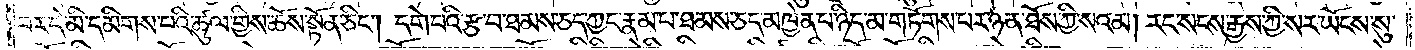བར་དེ་མི་དམིགས་པའི་ཚུལ་གྱིས་ཆོས་སྟོན་ཅིང༌། དགེ་བའི་རྩ་བ་ཐམས་ཅད་རྣམ་ཀྱང་རྣམ་པ་ཐམས་ཅད་མཁྱེན་པ་ཉིད་མ་གཏོགས་པར་ཉན་ཐོས་ཀྱི་སའམ། རང་སངས་རྒྱས་ཀྱི་སར་ཡོངས་སུ་
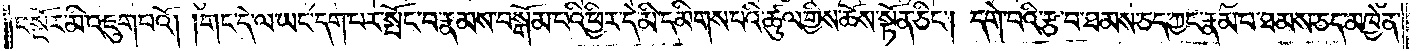བསྔོར་མི་འཇུག་པའོ། །གང་དེ་ལ་ཡང་དག་པར་སྤོང་བ་རྣམས་བསྒོམ་པའི་ཕྱིར་དེ་མི་དམིགས་པའི་ཚུལ་གྱིས་ཆོས་སྟོན་ཅིང༌། དགེ་བའི་རྩ་བ་ཐམས་ཅད་ཀྱང་རྣམ་པ་ཐམས་ཅད་མཁྱེན་
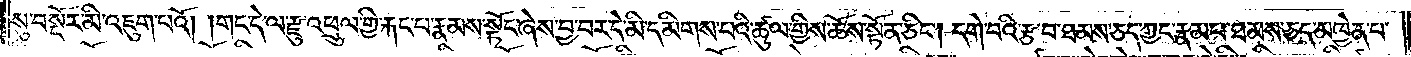སུ་བསྔོར་མི་འཇུག་པའོ། །གང་དེ་ལ་རྫུ་འཕྲུལ་གྱི་རྐང་པ་རྣམས་སྟོང་ཞེས་བྱ་བར་དེ་མི་དམིགས་པའི་ཚུལ་གྱིས་ཆོས་སྟོན་ཅིང༌། དགེ་བའི་རྩ་བ་ཐམས་ཅད་ཀྱང་རྣམ་པ་ཐམས་ཅད་མཁྱེན་པ་
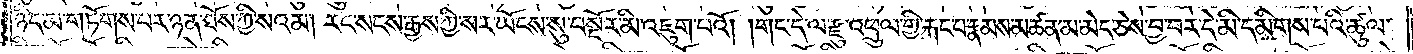ཉིད་མ་གཏོགས་པར་ཉན་ཐོས་ཀྱི་སའམ། རང་སངས་རྒྱས་ཀྱི་སར་ཡོངས་སུ་བསྔོར་མི་འཇུག་པའོ། །གང་དེ་ལ་རྫུ་འཕྲུལ་གྱི་རྐང་པ་རྣམས་མཚན་མ་མེད་ཅེས་བྱ་བར་དེ་མི་དམིགས་པའི་ཚུལ་
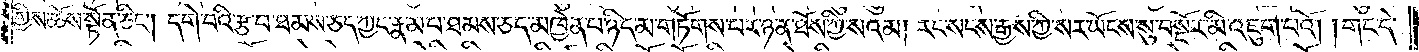གྱིས་ཆོས་སྟོན་ཅིང༌། དགེ་བའི་རྩ་བ་ཐམས་ཅད་ཀྱང་རྣམ་པ་ཐམས་ཅད་མཁྱེན་པ་ཉིད་མ་གཏོགས་པར་ཉན་ཐོས་ཀྱི་སའམ། རང་སངས་རྒྱས་ཀྱི་སར་ཡོངས་སུ་བསྔོར་མི་འཇུག་པའོ། །གང་དེ་
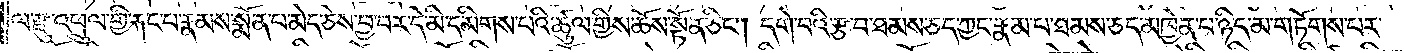ལ་རྫུ་འཕྲུལ་གྱི་རྐང་པ་རྣམས་སྨོན་པ་མེད་ཅེས་བྱ་བར་དེ་མི་དམིགས་པའི་ཚུལ་གྱིས་ཆོས་སྟོན་ཅིང༌། དགེ་བའི་རྩ་བ་ཐམས་ཅད་ཀྱང་རྣམ་པ་ཐམས་ཅད་མཁྱེན་པ་ཉིད་མ་གཏོགས་པར་
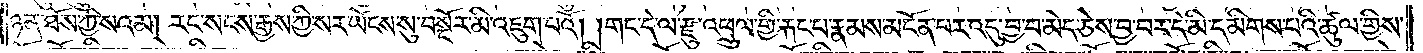ཉན་ཐོས་ཀྱི་སའམ། རང་སངས་རྒྱས་ཀྱི་སར་ཡོངས་སུ་བསྔོར་མི་འཇུག་པའོ། །གང་དེ་ལ་རྫུ་འཕྲུལ་གྱི་རྐང་པ་རྣམས་མངོན་པར་འདུ་བྱ་བ་མེད་ཅེས་བྱ་བར་དེ་མི་དམིགས་པའི་ཚུལ་གྱིས་
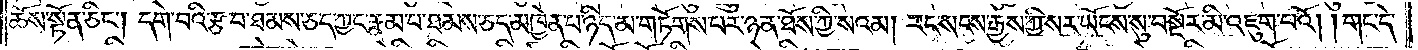ཆོས་སྟོན་ཅིང༌། དགེ་བའི་རྩ་བ་ཐམས་ཅད་ཀྱང་རྣམ་པ་ཐམས་ཅད་མཁྱེན་པ་ཉིད་མ་གཏོགས་པར་ཉན་ཐོས་ཀྱི་སའམ། རང་སངས་རྒྱས་ཀྱི་སར་ཡོངས་སུ་བསྔོར་མི་འཇུག་པའོ། །གང་དེ་
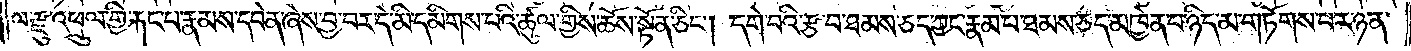ལ་རྫུ་འཕྲུལ་གྱི་རྐང་པ་རྣམས་དབེན་ཞེས་བྱ་བར་དེ་མི་དམིགས་པའི་ཚུལ་གྱིས་ཆོས་སྟོན་ཅིང༌། དགེ་བའི་རྩ་བ་ཐམས་ཅད་ཀྱང་རྣམ་པ་ཐམས་ཅད་མཁྱེན་པ་ཉིད་མ་གཏོགས་པར་ཉན་
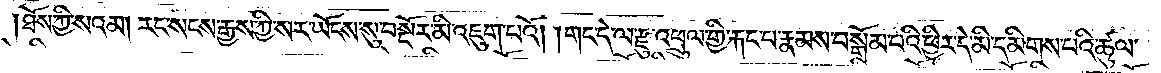ཐོས་ཀྱི་སའམ། རང་སངས་རྒྱས་ཀྱི་སར་ཡོངས་སུ་བསྔོར་མི་འཇུག་པའོ། །གང་དེ་ལ་རྫུ་འཕྲུལ་གྱི་རྐང་པ་རྣམས་བསྒོམ་པའི་ཕྱིར་དེ་མི་དམིགས་པའི་ཚུལ་
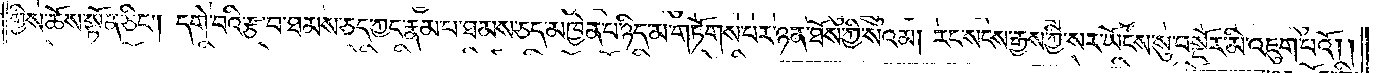གྱིས་ཆོས་སྟོན་ཅིང༌། དགེ་བའི་རྩ་བ་ཐམས་ཅད་ཀྱང་རྣམ་པ་ཐམས་ཅད་མཁྱེན་པ་ཉིད་མ་གཏོགས་པར་ཉན་ཐོས་ཀྱི་སའམ། རང་སངས་རྒྱས་ཀྱི་སར་ཡོངས་སུ་བསྔོར་མི་འཇུག་པའོ། །
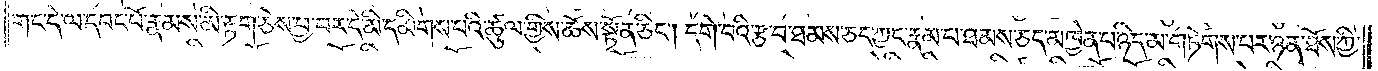གང་དེ་ལ་དབང་པོ་རྣམས་མི་རྟག་ཅེས་བྱ་བར་དེ་མི་དམིགས་པའི་ཚུལ་གྱིས་ཆོས་སྟོན་ཅིང༌། དགེ་བའི་རྩ་བ་ཐམས་ཅད་ཀྱང་རྣམ་པ་ཐམས་ཅད་མཁྱེན་པ་ཉིད་མ་གཏོགས་པར་ཉན་ཐོས་ཀྱི་
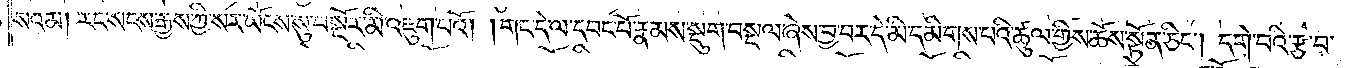སའམ། རང་སངས་རྒྱས་ཀྱི་སར་ཡོངས་སུ་བསྔོར་མི་འཇུག་པའོ། །གང་དེ་ལ་དབང་པོ་རྣམས་སྡུག་བསྔལ་ཞེས་བྱ་བར་དེ་མི་དམིགས་པའི་ཚུལ་གྱིས་ཆོས་སྟོན་ཅིང༌། དགེ་བའི་རྩ་བ་
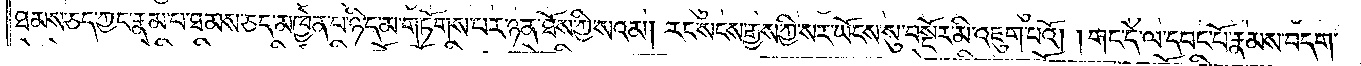ཐམས་ཅད་ཀྱང་རྣམ་པ་ཐམས་ཅད་མཁྱེན་པ་ཉིད་མ་གཏོགས་པར་ཉན་ཐོས་ཀྱི་སའམ། རང་སངས་རྒྱས་ཀྱི་སར་ཡོངས་སུ་བསྔོར་མི་འཇུག་པའོ། །གང་དེ་ལ་དབང་པོ་རྣམས་བདག་
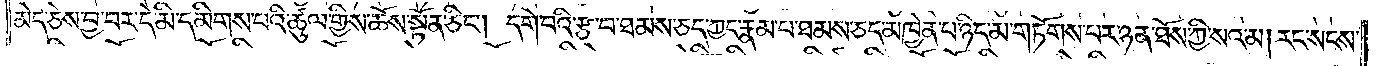མེད་ཅེས་བྱ་བར་དེ་མི་དམིགས་པའི་ཚུལ་གྱིས་ཆོས་སྟོན་ཅིང༌། དགེ་བའི་རྩ་བ་ཐམས་ཅད་ཀྱང་རྣམ་པ་ཐམས་ཅད་མཁྱེན་པ་ཉིད་མ་གཏོགས་པར་ཉན་ཐོས་ཀྱི་སའམ། རང་སངས་
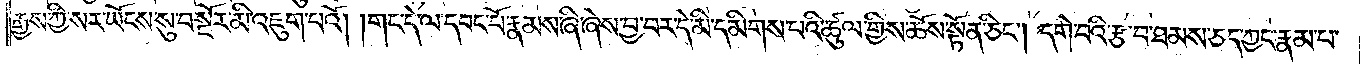རྒྱས་ཀྱི་སར་ཡོངས་སུ་བསྔོར་མི་འཇུག་པའོ། །གང་དེ་ལ་དབང་པོ་རྣམས་ཞི་ཞེས་བྱ་བར་དེ་མི་དམིགས་པའི་ཚུལ་གྱིས་ཆོས་སྟོན་ཅིང༌། དགེ་བའི་རྩ་བ་ཐམས་ཅད་ཀྱང་རྣམ་པ་
